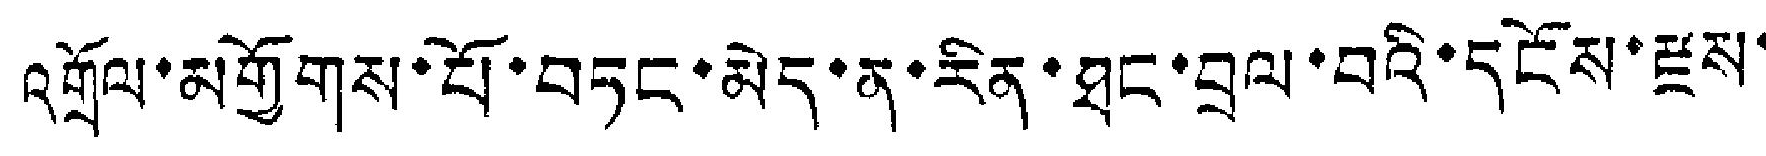འགྲོལ་མགྱོགས་པོ་བཏང་མེད་ན་རིན་ཐང་བྲལ་བའི་དངོས་རྫས་
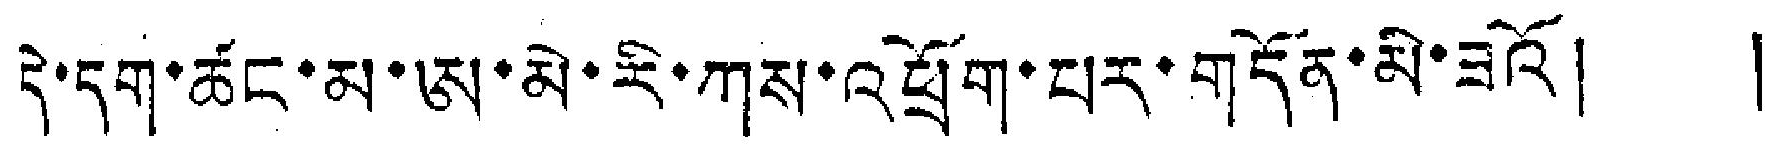དེ་དག་ཚང་མ་ཨ་མེ་རི་ཀས་འཕྲོག་པར་གདོན་མི་ཟའོ། །
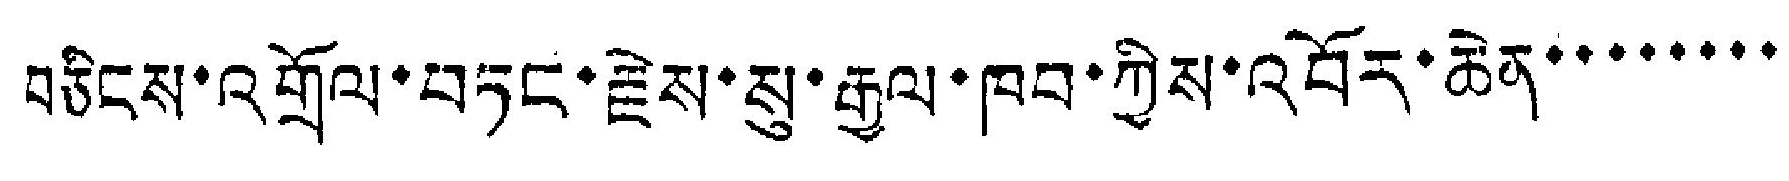བཅིངས་འགྲོལ་གཏང་རྗེས་སུ་རྒྱལ་ཁབ་ཀྱིས་འབོར་ཆེན་་་་་་་་
